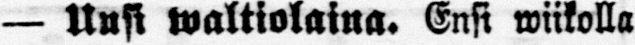— Uusi waltiolaina. Ensi wiikolla
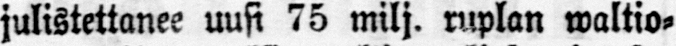julistettanee uusi 75 milj. ruplan waltio-
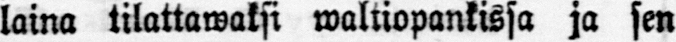laina tilattawaksi waltiopankissa ja sen
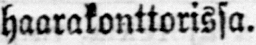haarakonttorissa.
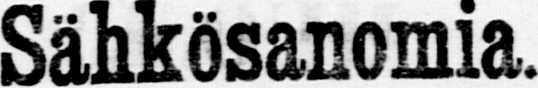Sähkösanomia.
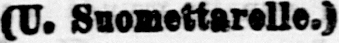(U. Suomettarelle.)
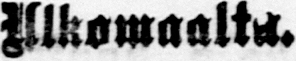Ulkomaalta.
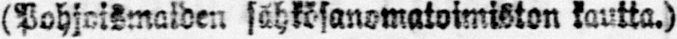(Pohjoismaiden sahkösanomatoimiston kautta.)
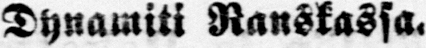Dynamiti Ranskassa.
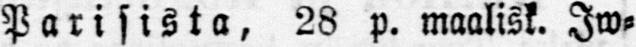Parisista, 28 p. maalisk. Iw-
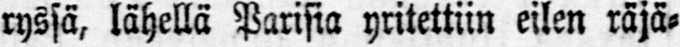ryssä, lähellä Parisia yritettiin eilen räjä-
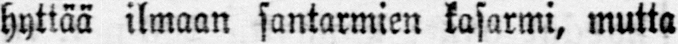hyttää ilmaan santarmien kasarmi, mutta
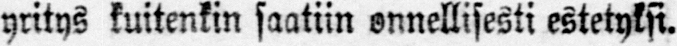yritys kuitenkin saatiin onnellisesti estetyksi.
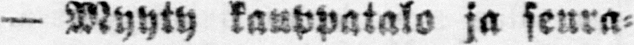— Myyty kauppatalo ja seura-
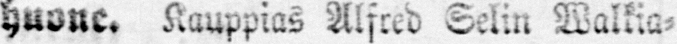huone. Kauppias Alfred Selin Walkia-
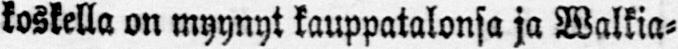koskella on myynyt kauppatalonsa ja Walkia-
